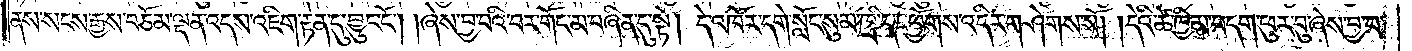ནས་སངས་རྒྱས་བཅོམ་ལྡན་འདས་འཇིག་རྟེན་དུ་བྱུང་ངོ༌། །ཞེས་བྱ་བའི་བར་གོང་མ་བཞིན་དུ་སྟེ། དེ་འཁོར་དགེ་སློང་སུམ་ཁྲི་དང་ཕྱོགས་འདིར་གཤེགས་སོ། །དེའི་ཚེ་ཁྱིམ་བདག་ཕུར་བུ་ཞེས་བྱ་བ་
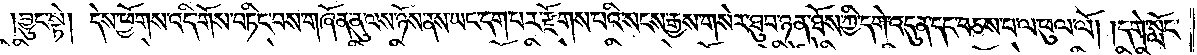བྱུང་སྟེ། དེས་ཕྱོགས་འདི་གོས་བཏིང་བས་གཞོན་ནུ་ལས་ཉོས་ནས་ཡང་དག་པར་རྫོགས་པའི་སངས་རྒྱས་གསེར་ཐུབ་ཉན་ཐོས་ཀྱི་དགེ་འདུན་དང་བཅས་པ་ལ་ཕུལ་ལོ། །དགེ་སློང་
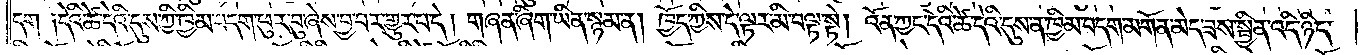དག ༑དེའི་ཚེ་དེའི་དུས་ཀྱི་ཁྱིམ་བདག་ཕུར་བུ་ཞེས་བྱ་བར་གྱུར་བ་དེ། གཞན་ཞིག་ཡིན་སྙམ་ན། ཁྱོད་ཀྱིས་དེ་ལྟར་མི་བལྟ་སྟེ། འོན་ཀྱང་དེའི་ཚེ་དེའི་དུས་ན་ཁྱིམ་བདག་མགོན་མེད་ཟས་སྦྱིན་འདི་ཉིད་
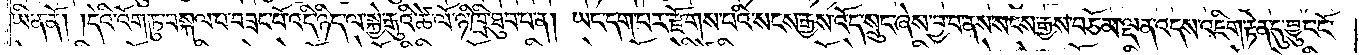ཡིན་ནོ། །དེའི་འོག་ཏུ་བསྐལ་བ་བཟང་པོ་འདི་ཉིད་ལ་སྐྱེ་རྒུའི་ཚེ་ལོ་ཉི་ཁྲི་ཐུབ་པ་ན། ཡང་དག་པར་རྫོགས་པའི་སངས་རྒྱས་འོད་སྲུང་ཞེས་བྱ་བ་ནས་སངས་རྒྱས་བཅོམ་ལྡན་འདས་འཇིག་རྟེན་དུ་བྱུང་ངོ་
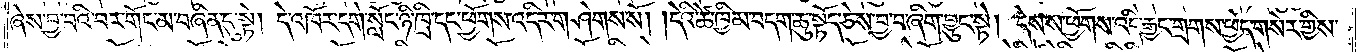ཞེས་བྱ་བའི་བར་གོང་མ་བཞིན་དུ་སྟེ། དེ་འཁོར་དགེ་སློང་ཉིད་ཁྲི་དང་ཕྱོགས་འདིར་གཤེགས་སོ། །དེའི་ཚེ་ཁྱིམ་བདག་ཆུ་སྟོད་ཅེས་བྱ་བ་ཞིག་བྱུང་སྟེ། དེས་ས་ཕྱོགས་འདི་རྒྱང་གྲགས་ཕྱེད་གསེར་གྱིས་
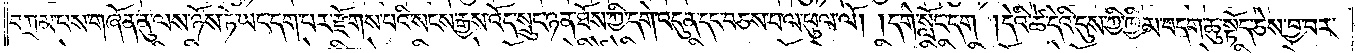བཀྲམ་པས་གཞོན་ནུ་ལས་ཉོས་ཏེ་ཡང་དག་པར་རྫོགས་པའི་སངས་རྒྱས་འོད་སྲུང་ཉན་ཐོས་ཀྱི་དགེ་འདུན་དང་བཅས་པ་ལ་ཕུལ་ལོ། །དགེ་སློང་དག །དེའི་ཚེ་དེའི་དུས་ཀྱི་ཁྱིམ་བདག་ཆུ་སྟོད་ཅེས་བྱ་བར་
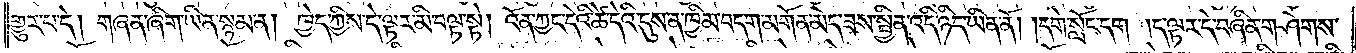གྱུར་པ་དེ། གཞན་ཞིག་ཡིན་སྙམ་ན། ཁྱེད་ཀྱིས་དེ་ལྟར་མི་བལྟ་སྟེ། འོན་ཀྱང་དེའི་ཚེ་དེའི་དུས་ན་ཁྱིམ་བདག་མགོན་མེད་ཟས་སྦྱིན་འདི་ཉིད་ཡིན་ནོ། །དགེ་སློང་དག །ད་ལྟར་དེ་བཞིན་གཤེགས་
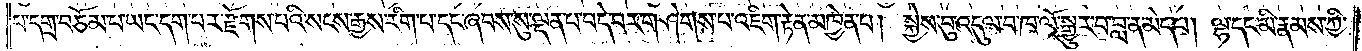པ་དགྲ་བཅོམ་པ་ཡང་དག་པར་རྫོགས་པའི་སངས་རྒྱས་རིག་པ་དང་ཞབས་སུ་ལྡན་པ་བདེ་བར་གཤེགས་པ་འཇིག་རྟེན་མཁྱེན་པ། སྐྱེས་བུ་འདུལ་བ་ཁ་ལོ་སྒྱུར་བ་བླ་ན་མེད་པ། ལྷ་དང་མི་རྣམས་ཀྱི་
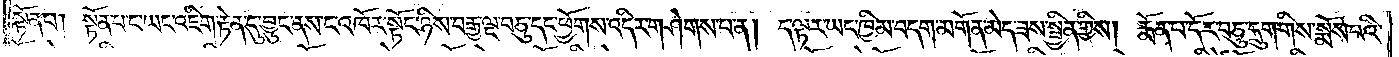སྟོན་པ། སྟོན་པ་ང་ཡང་འཇིག་རྟེན་དུ་བྱུང་ནས་ང་འཁོར་སྟོང་ཉིས་བརྒྱ་ལྔ་བཅུ་དང་ཕྱོགས་འདིར་གཤེགས་པ་ན། ད་ལྟར་ཡང་ཁྱིམ་བདག་མགོན་མེད་ཟས་སྦྱིན་གྱིས། རྨོན་པ་དོར་བཅུ་དྲུག་གིས་སྨོས་པའི་
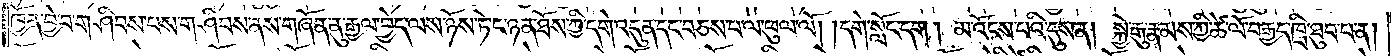ཁྱོན་བྱེ་བ་གཤིབས་པས་གཤིབས་ནས་གཞོན་ནུ་རྒྱལ་བྱེད་ལས་ཉོས་ཏེ་ང་ཉན་ཐོས་ཀྱི་དགེ་འདུན་དང་བཅས་པ་ལ་ཕུལ་ལོ། །དགེ་སློང་དག །མ་འོངས་པའི་དུས་ན། སྐྱེ་རྒུ་རྣམས་ཀྱི་ཚེ་ལོ་བརྒྱད་ཁྲི་ཐུབ་པ་ན།
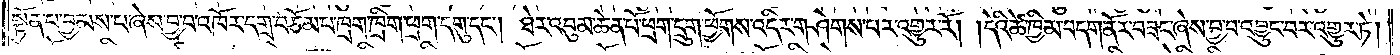སྟོན་པ་བྱམས་པ་ཞེས་བྱ་བ་འཁོར་དགྲ་བཅོམ་པ་ཁྲག་ཁྲིག་ཕྲག་དགུ་དང༌། ཐེར་འབུམ་ཆེན་པོ་ཕྲག་དྲུག་ཕྱོགས་འདིར་གཤེགས་པར་འགྱུར་རོ། །དེའི་ཚེ་ཁྱིམ་བདག་ནོར་བཟང་ཞེས་བྱ་བ་འབྱུང་བར་འགྱུར་ཏེ།
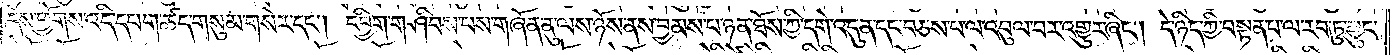དེས་ཕྱོགས་འདི་དཔག་ཚད་གསུམ་གསེར་དང༌། དབྱིག་གཤིབས་པས་གཞོན་ནུ་ལས་ཉོས་ནས་བྱམས་པ་ཉན་ཐོས་ཀྱི་དགེ་འདུན་དང་བཅས་པ་ལ་འབུལ་བར་འགྱུར་ཞིང༌། དེ་ཉིད་ཀྱི་བསྟན་པ་ལ་རབ་ཏུ་བྱུང་
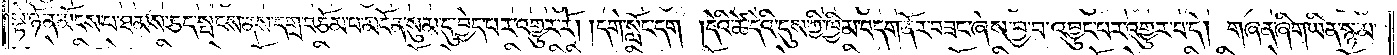སྟེ་ཉོན་མོངས་པ་ཐམས་ཅད་སྤངས་ནས་དགྲ་བཅོམ་པ་མངོན་སུམ་དུ་བྱེད་པར་འགྱུར་རོ། །དགེ་སློང་དག །དེའི་ཚེ་དེའི་དུས་ཀྱི་ཁྱིམ་བདག་ནོར་བཟང་ཞེས་བྱ་བ་འབྱུང་བར་འགྱུར་བ་དེ། གཞན་ཞིག་ཡིན་སྙམ་
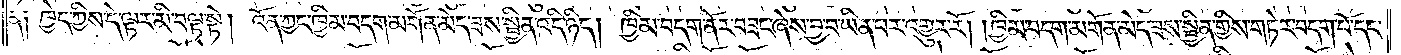ན། ཁྱེད་ཀྱིས་དེ་ལྟར་མི་བལྟ་སྟེ། འོན་ཀྱང་ཁྱིམ་བདག་མགོན་མེད་ཟས་སྦྱིན་འདི་ཉིད། ཁྱིམ་བདག་ནོར་བཟང་ཞེས་བྱ་བ་ཡིན་པར་འགྱུར་རོ། །ཁྱིམ་བདག་མགོན་མེད་ཟས་སྦྱིན་གྱིས་གཏེར་བདག་པོ་དང་
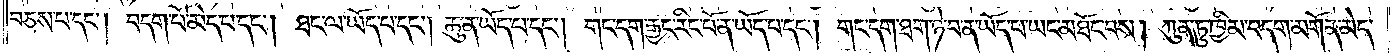བཅས་པ་དང༌། བདག་པོ་མེད་པ་དང༌། ཐང་ལ་ཡོད་པ་དང༌། ཆུ་ན་ཡོད་པ་དང༌། གང་དག་རྒྱང་རིང་པོ་ན་ཡོད་པ་དང༌། གང་དག་ཐག་ཉེ་བ་ན་ཡོད་པ་ཡང་མཐོང་བས། ཀུན་ཏུ་ཁྱིམ་བདག་མགོན་མེད་
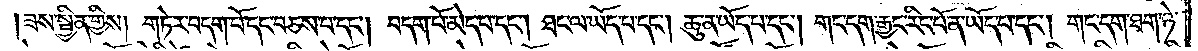།ཟས་སྦྱིན་གྱིས། གཏེར་བདག་པོ་དང་བཅས་པ་དང༌། བདག་པོ་མེད་པ་དང༌། ཐང་ལ་ཡོད་པ་དང༌། ཆུ་ན་ཡོད་པ་དང༌། གང་དག་རྒྱང་རིང་པོ་ན་ཡོད་པ་དང༌། གང་དག་ཐག་ཉེ་
